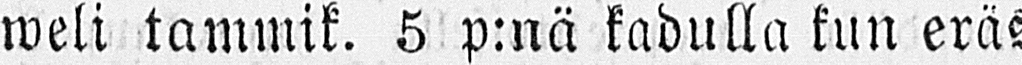weli tammik. 5 p:nä kadulla kun eräs
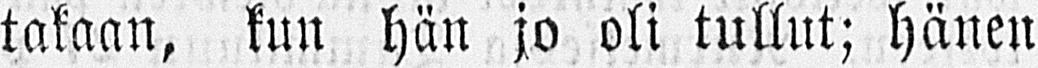takaan, kun hän jo oli tullut; hänen
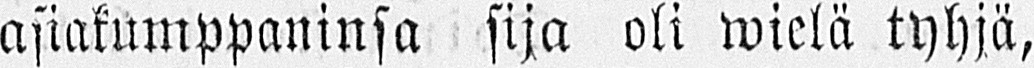asiakumppaninsa sija oli wielä tyhjä,
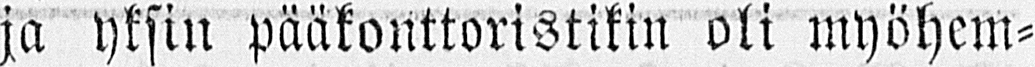ja yksin pääkonttoristikin oli myöhem-
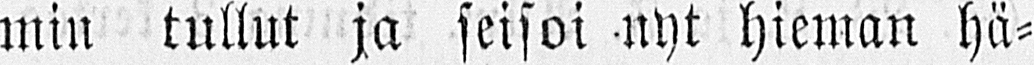min tullut ja seisoi nyt hieman hä-
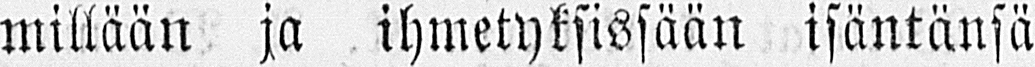millään ja ihmetyksissään isäntänsä
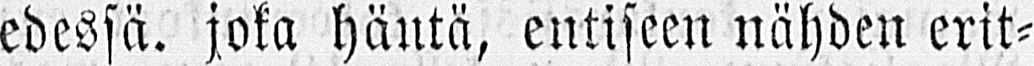edessä, joka häntä, entiseen nähden erit-
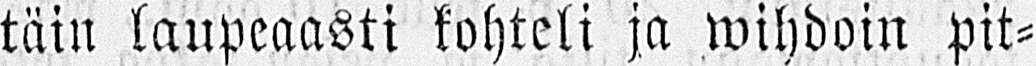täin laupeaasti kohteli ja wihdoin pit-
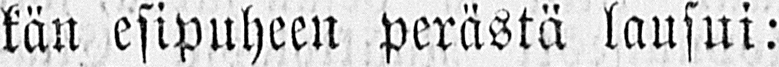kän esipuheen perästä lausui:
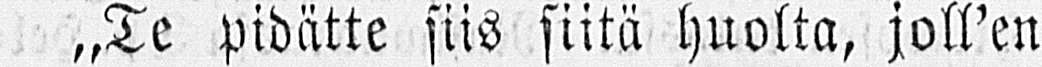˶Te pidätte siis siitä huolta, joll'en
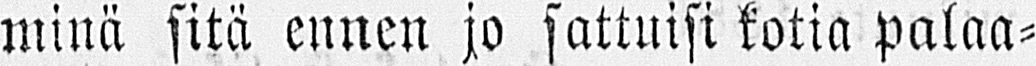minä sitä ennen jo sattuisi kotia palaa-
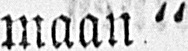maan"
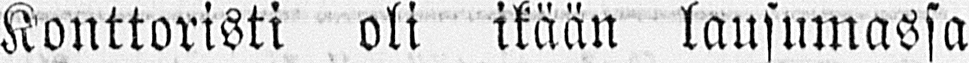Konttoristi oli ikään lausumassa
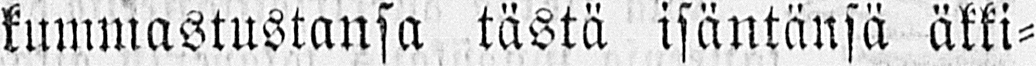kummastustansa tästä isäntänsä äkki-
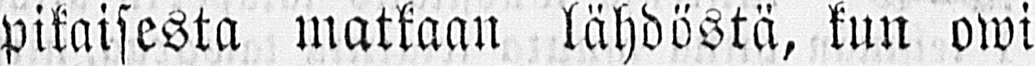pikaisesta matkaan lähdöstä, kun owi
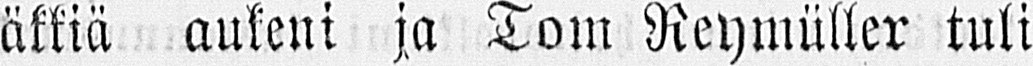äkkiä aukeni ja Tom Reymüller tuli
